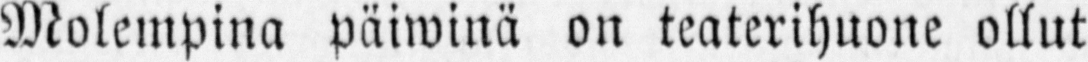Molempina päiwinä on teaterihuone ollut
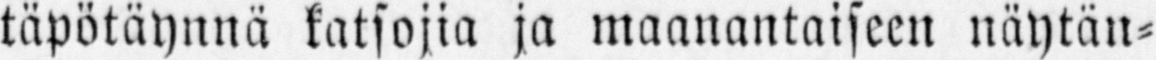täpötäynnä katsojia ja maanantaiseen näytän-
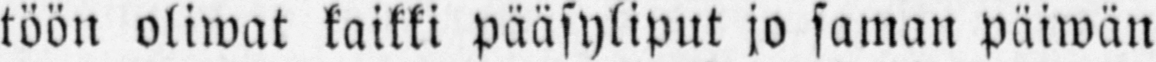töön oliwat kaikki pääsyliput jo saman päiwän
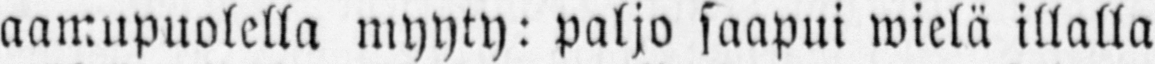aamupuolella myyty: paljo saapui wielä illalla
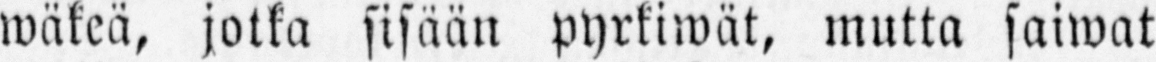wäkeä, jotka sisään pyrkiwät, mutta saiwat
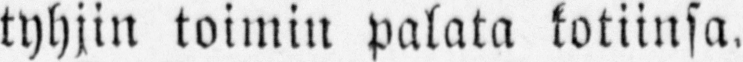tyhjin toimin palata kotiinsa.
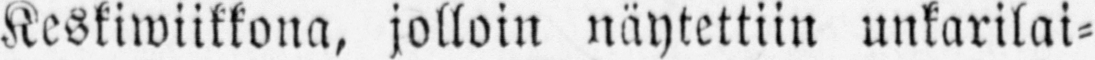Keskiwiikkona, jolloin näytettiin unkarilai-
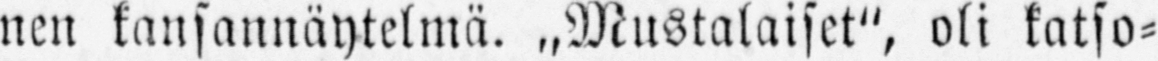nen kansannäytelmä. ˶Mustalaiset", oli katso-
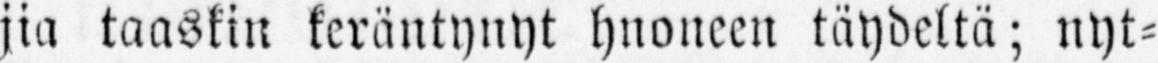jia taaskin keräntynyt huoneen täydeltä; nyt-
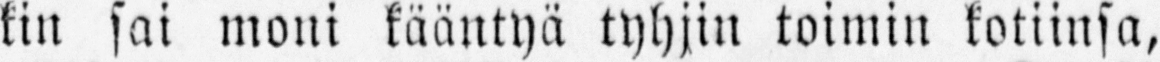kin sai moni kääntyä tyhjin toimin kotiinsa,
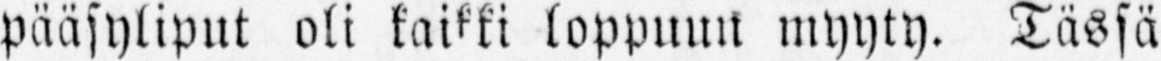pääsyliput oli kaikki loppuun myyty. Tässä
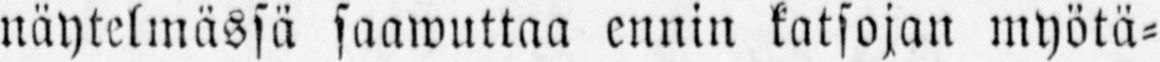näytelmässä saawuttaa ennin katsojan myötä-
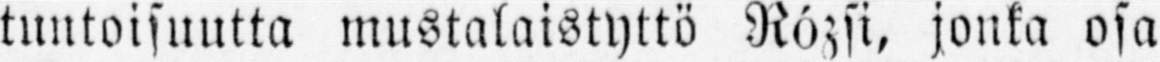tuntoisuutta mustalaistyttö Rózsi, jonka osa
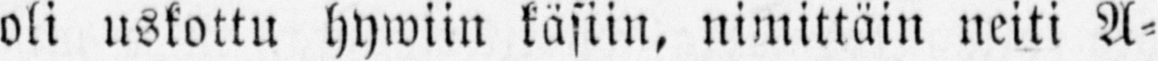oli uskottu hywiin käsiin, nimttäin neiti A-
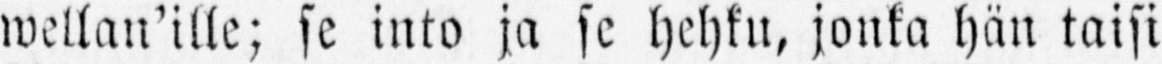wellan'ille; se into ja se hehku, jonka hän taisi
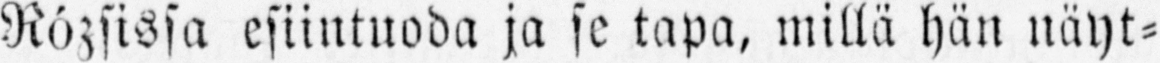Rözsissa esiintuoda ja se tapa, millä hän näyt-
